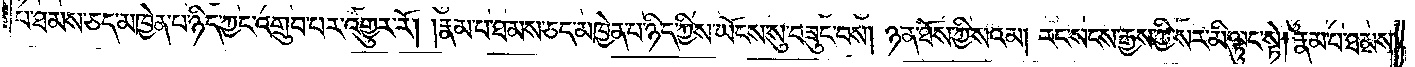པ་ཐམས་ཅད་མཁྱེན་པ་ཉིད་ཀྱང་འགྲུབ་པར་འགྱུར་རོ། །རྣམ་པ་ཐམས་ཅད་མཁྱེན་པ་ཉིད་ཀྱིས་ཡོངས་སུ་བཟུང་བས། ཉན་ཐོས་ཀྱི་སའམ། རང་སངས་རྒྱས་ཀྱི་སར་མི་ལྟུང་སྟེ། རྣམ་པ་ཐམས་
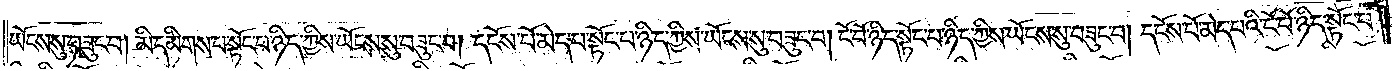ཡོངས་སུ་བཟུང་བ། མི་དམིགས་པ་སྟོང་པ་ཉིད་ཀྱིས་ཡོངས་སུ་བཟུང་བ། དངོས་པོ་མེད་པ་སྟོང་པ་ཉིད་ཀྱིས་ཡོངས་སུ་བཟུང་བ། ངོ་བོ་ཉིད་སྟོང་པ་ཉིད་ཀྱིས་ཡོངས་སུ་བཟུང་བ། དངོས་པོ་མེད་པའི་ངོ་བོ་ཉིད་སྟོང་པ་
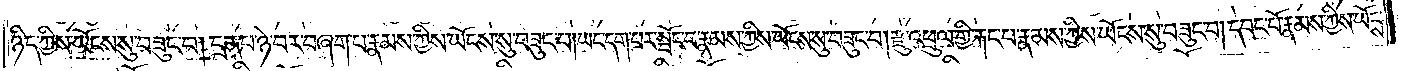ཉིད་ཀྱིས་ཡོངས་སུ་བཟུང་བ། དྲན་པ་ཉེ་བར་བཞག་པ་རྣམས་ཀྱིས་ཡོངས་སུ་བཟུང་བ། ཡང་དག་པར་སྤོང་བ་རྣམས་ཀྱིས་ཡོངས་སུ་བཟུང་བ། རྫུ་འཕྲུལ་གྱི་རྐང་པ་རྣམས་ཀྱིས་ཡོངས་སུ་བཟུང་བ། དབང་པོ་རྣམས་ཀྱིས་ཡོངས་
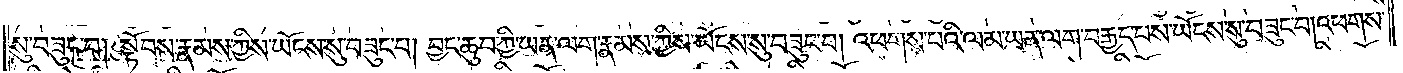སུ་བཟུང་བ། སྟོབས་རྣམས་ཀྱིས་ཡོངས་སུ་བཟུང་བ། བྱང་ཆུབ་ཀྱི་ཡན་ལག་རྣམས་ཀྱིས་ཡོངས་སུ་བཟུང་བ། འཕགས་པའི་ལམ་ཡན་ལག་བརྒྱད་པས་ཡོངས་སུ་བཟུང་བ། འཕགས་
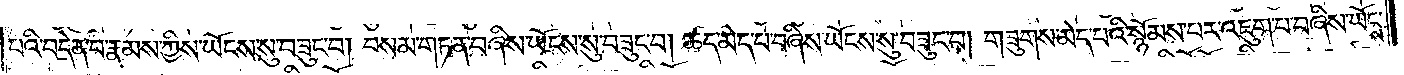པའི་བདེན་པ་རྣམས་ཀྱིས་ཡོངས་སུ་བཟུང་བ། བསམ་གཏན་བཞིས་ཡོངས་སུ་བཟུང་བ། ཚད་མེད་པ་བཞིས་ཡོངས་སུ་བཟུང་བ། གཟུགས་མེད་པའི་སྙོམས་པར་འཇུག་པ་བཞིས་ཡོངས་
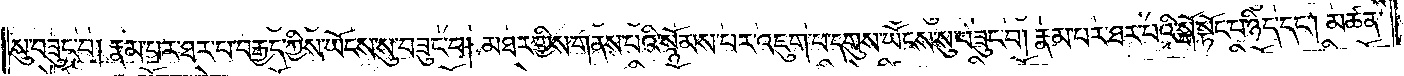སུ་བཟུང་བ། རྣམ་པར་ཐར་པ་བརྒྱད་ཀྱིས་ཡོངས་སུ་བཟུང་བ། མཐར་གྱིས་གནས་པའི་སྙོམས་པར་འཇུག་པ་དགུས་ཡོངས་སུ་བཟུང་བ། རྣམ་པར་ཐར་པའི་སྒོ་སྟོང་པ་ཉིད་དང༌། མཚན་
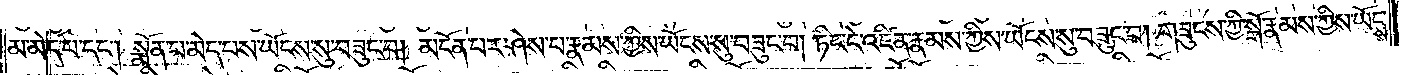མ་མེད་པ་དང༌། སྨོན་པ་མེད་པས་ཡོངས་སུ་བཟུང་བ། མངོན་པར་ཤེས་པ་རྣམས་ཀྱིས་ཡོངས་སུ་བཟུང་བ། ཏིང་ངེ་འཛིན་རྣམས་ཀྱིས་ཡོངས་སུ་བཟུང་བ། གཟུངས་ཀྱི་སྒོ་རྣམས་ཀྱིས་ཡོངས་
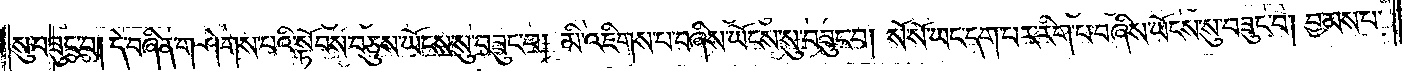སུ་བཟུང་བ། དེ་བཞིན་གཤེགས་པའི་སྟོབས་བཅུས་ཡོངས་སུ་བཟུང་བ། མི་འཇིགས་པ་བཞིས་ཡོངས་སུ་བཟུང་བ། སོ་སོ་ཡང་དག་པར་རིག་པ་བཞིས་ཡོངས་སུ་བཟུང་བ། བྱམས་པ་
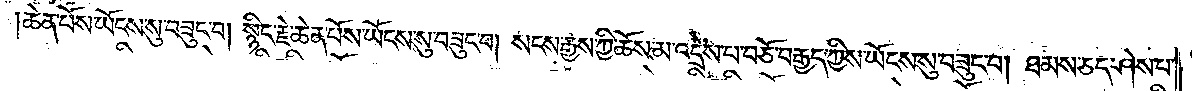ཆེན་པོས་ཡོངས་སུ་བཟུང་བ། སྙིང་རྗེ་ཆེན་པོས་ཡོངས་སུ་བཟུང་བ། སངས་རྒྱས་ཀྱི་ཆོས་མ་འདྲེས་པ་བཅོ་བརྒྱད་ཀྱིས་ཡོངས་སུ་བཟུང་བ། ཐམས་ཅད་ཤེས་པ་
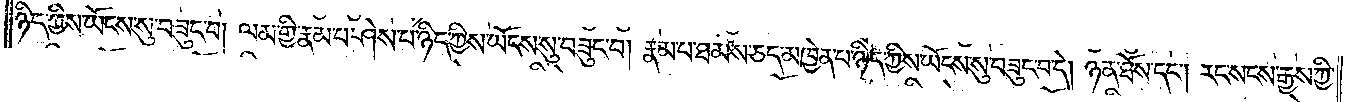ཉིད་ཀྱིས་ཡོངས་སུ་བཟུང་བ། ལམ་གྱི་རྣམ་པ་ཤེས་པ་ཉིད་ཀྱིས་ཡོངས་སུ་བཟུང་བ། རྣམ་པ་ཐམས་ཅད་མཁྱེན་པ་ཉིད་ཀྱིས་ཡོངས་སུ་བཟུང་བ་དེ། ཉན་ཐོས་དང༌། རང་སངས་རྒྱས་ཀྱི་
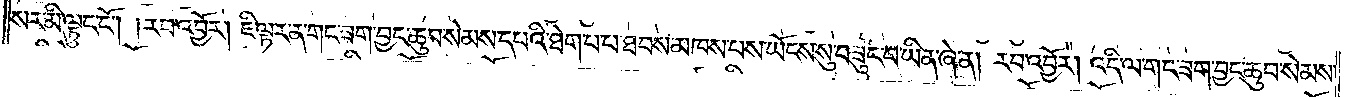སར་མི་ལྟུང་ངོ༌། །རབ་འབྱོར། ཇི་ལྟར་ན་གང་ཟག་བྱང་ཆུབ་སེམས་དཔའི་ཐེག་པ་པ་ཐབས་མཁས་པས་ཡོངས་སུ་བཟུང་བ་ཡིན་ཞེ་ན། རབ་འབྱོར། འདི་ལ་གང་ཟག་བྱང་ཆུབ་སེམས་
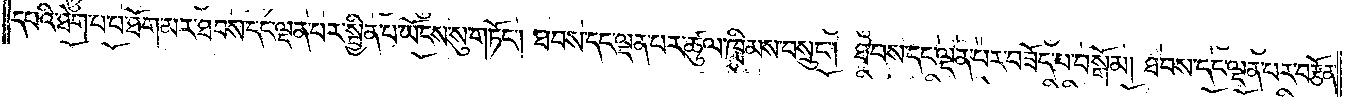དཔའི་ཐེག་པ་པ་ཐོག་མར་ཐབས་དང་ལྡན་པར་སྦྱིན་པ་ཡོངས་སུ་གཏོང༌། ཐབས་དང་ལྡན་པར་ཚུལ་ཁྲིམས་བསྲུང༌། ཐབས་དང་ལྡན་པར་བཟོད་པ་བསྒོམ། ཐབས་དང་ལྡན་པར་བརྩོན་
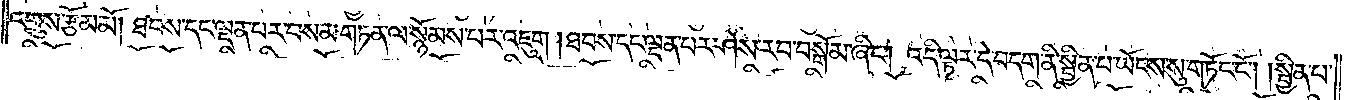འགྲུས་རྩོམ་མོ། ཐབས་དང་ལྡན་པར་བསམ་གཏན་ལ་སྙོམས་པར་འཇུག །ཐབས་དང་ལྡན་པར་ཤེས་རབ་བསྒོམ་ཞིང༌། འདི་ལྟར་དེ་བདག་ནི་སྦྱིན་པ་ཡོངས་སུ་གཏོང་ངོ༌། །སྦྱིན་པ་
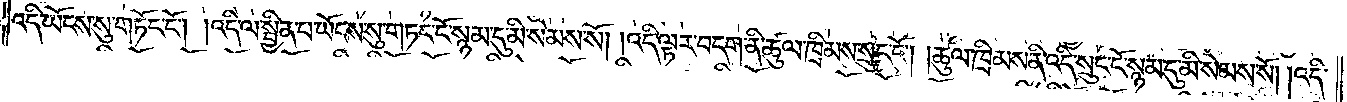འདི་ཡོངས་སུ་གཏོང་ངོ༌། །འདི་ལ་སྦྱིན་པ་ཡོངས་སུ་གཏང་ངོ་སྙམ་དུ་མི་སེམས་སོ། །འདི་ལྟར་བདག་ནི་ཚུལ་ཁྲིམས་སྲུང་ངོ༌། །ཚུལ་ཁྲིམས་ནི་འདི་སྲུང་ངོ་སྙམ་དུ་མི་སེམས་སོ། །འདི་
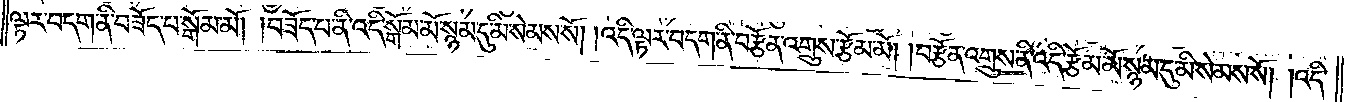ལྟར་བདག་ནི་བཟོད་པ་སྒོམ་མོ། །བཟོད་པ་ནི་འདི་སྒོམ་མོ་སྙམ་དུ་མི་སེམས་སོ། །འདི་ལྟར་བདག་ནི་བརྩོན་འགྲུས་རྩོམ་མོ། །བརྩོན་འགྲུས་ནི་འདི་རྩམ་མོ་སྙམ་དུ་མི་སེམས་སོ། །འདི་
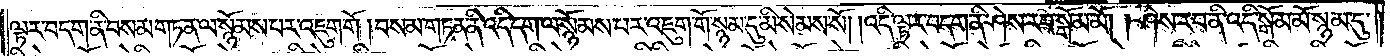ལྟར་བདག་ནི་བསམ་གཏན་ལ་སྙོམས་པར་འཇུག་གོ །བསམ་གཏན་ནི་འདི་དག་ལ་སྙོམས་པར་འཇུག་གོ་སྙམ་དུ་མི་སེམས་སོ། །འདི་ལྟར་བདག་ནི་ཤེས་རབ་སྒོམ་མོ། །ཤེས་རབ་ནི་འདི་སྒོམ་མོ་སྙམ་དུ་
